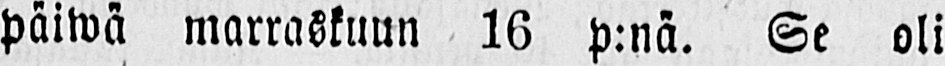päiwä marraskuun 16 p:nä. Se oli
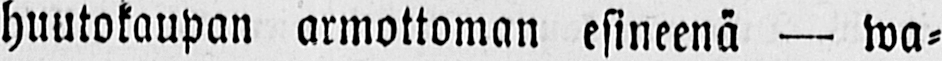huutokaupan armottoman esineenä — wa-
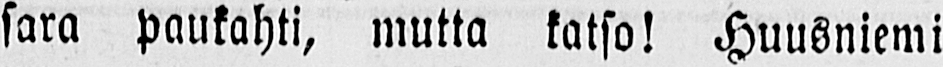sara paukahti, mutta katso! Huusniemi
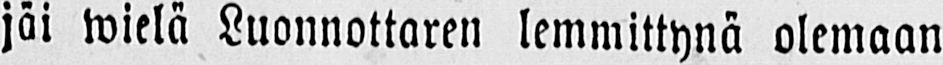jäi wielä Luonnottaren lemmittynä olemaan
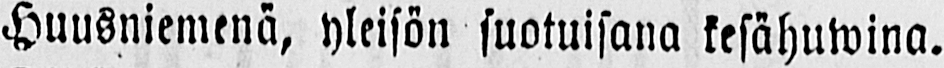Huusniemenä, yleisön suotuisana kesähuwina.
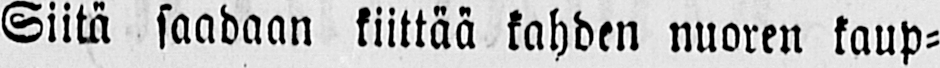Siitä saadaan kiittää kahden nuoren kaup-
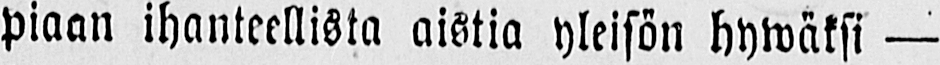piaan ihanteellista aistia yleisön hywäksi —
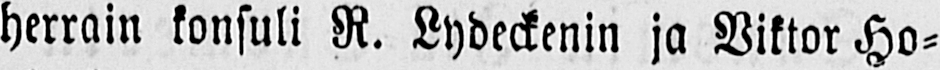herrain konsuli R. Lydeckenin ja Viktor Ho-
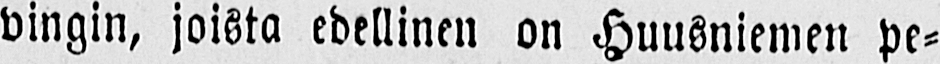vingin, joista edellinen on Huusniemen pe-
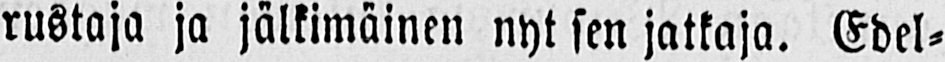rustaja ja jälkimäinen nyt sen jatkaja. Edel-
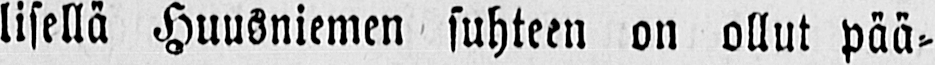lisellä Huusniemen suhteen on ollut pää-
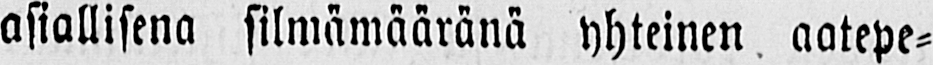asiallisena silmämääränä yhteinen aatepe-
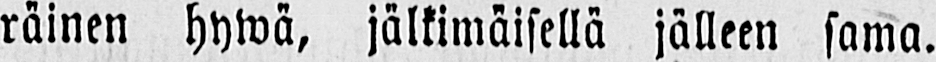räinen hywä, jälkimäisellä jälleen sama.
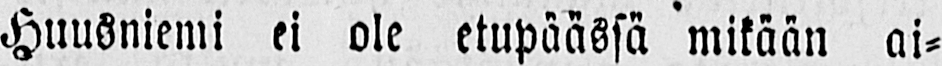Huusniemi ei ole etupäässä mikään ai-
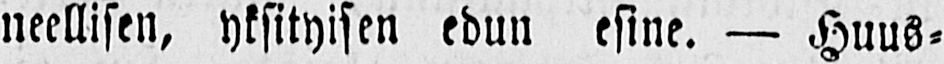neellisen, yksityisen edun esine. — Huus-
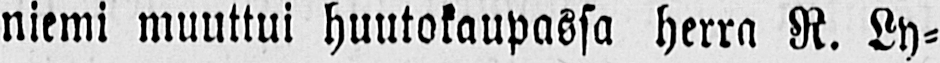niemi muuttui huutokaupassa herra R. Ly-
